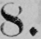8.
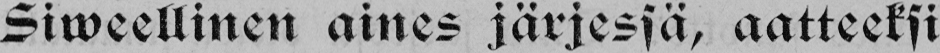Siweellinen aines järjessä, aatteeksi
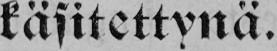käsitettynä.
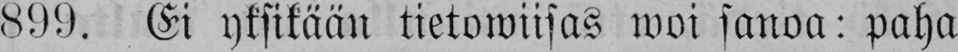899. Ei yksikään tietowiisas woi sanoa: paha
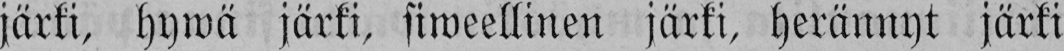järki, hywä järki, siweellinen järki, herännyt järki
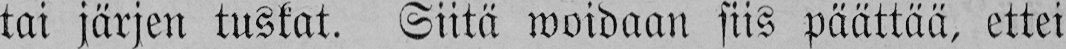tai järjen tuskat. Siitä woidaan siis päättää, ettei
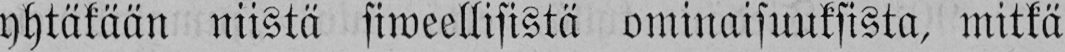yhtäkään niistä siweellisistä ominaisuuksista, mitkä
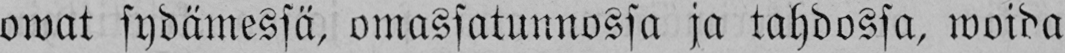owat sydämessä, omassatunnossa ja tahdossa, woida
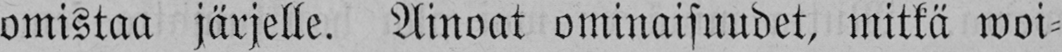omistaa järjelle. Ainoat ominaisuudet, mitkä woi-
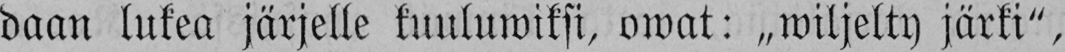daan lukea järjelle kuuluwiksi, owat: „wiljelty järki",
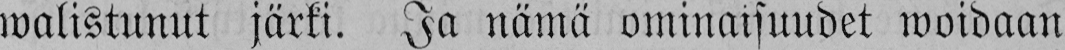walistunut järki. Ja nämä ominaisuudet woidaan
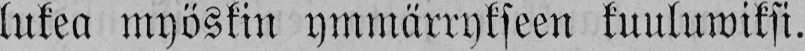lukea myöskin ymmärrykseen kuuluwiksi.
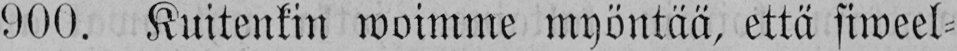900. Kuitenkin woimme myöntää, että siweel-
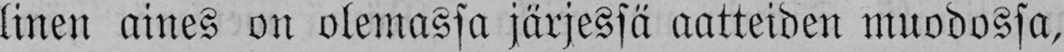linen aines on olemassa järjessä aatteiden muodossa,
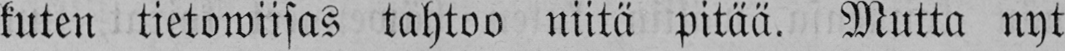kuten tietowiisas tahtoo niitä pitää. Mutta nyt
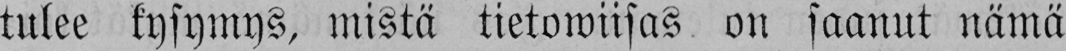tulee kysymys, mistä tietowiisas on saanut nämä
